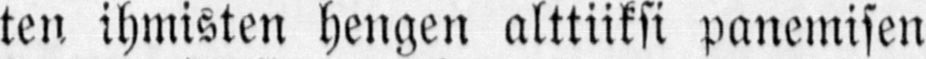ten ihmisten hengen alttiiksi panemisen
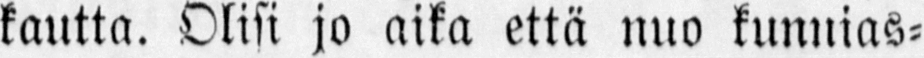kautta. Olisi jo aika että nuo kunnias-
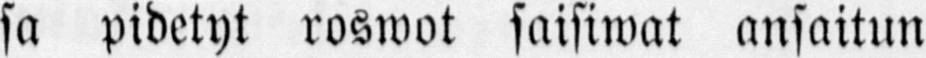sa pidetyt roswot saisiwat ansaitun
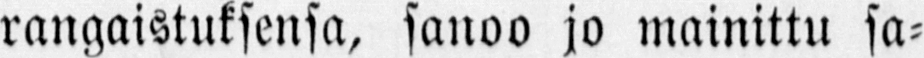rangaistuksensa, sanoo jo mainittu sa-
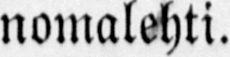nomalehti.
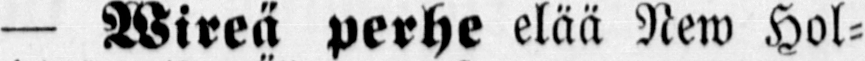— Wireä perhe elää New Hol-
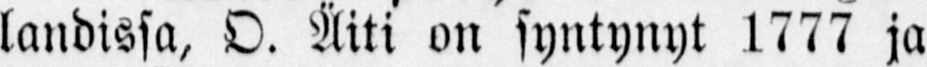landissa, O. Äiti on syntynyt 1777 ja
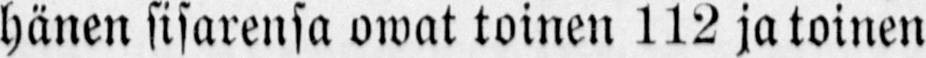hänen sisarensa owat toinen 112 ja toinen
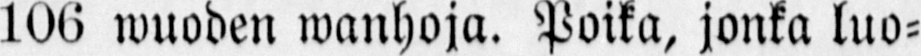106 wuoden wanhoja. Poika, jonka luo-
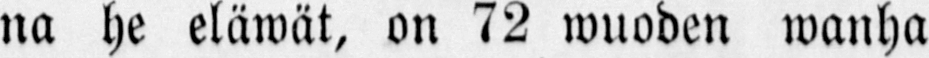na he eläwät, on 72 wuoden wanha
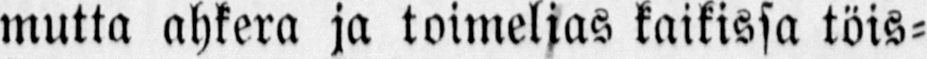mutta ahkera ja toimelias kaikissa töis-
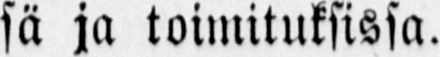sä ja toimituksissa.
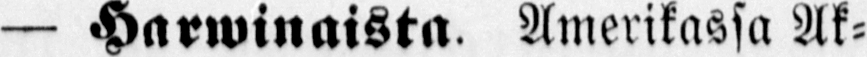— Harwinaista. Amerikassa Ak-
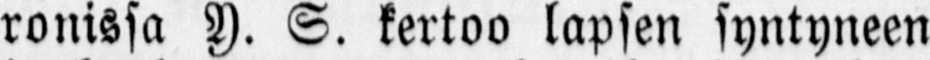ronissa Y. S. kertoo lapsen syntyneen
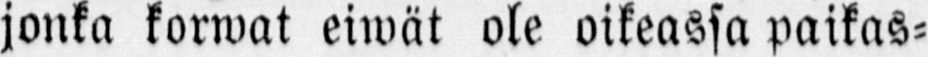jonka korwat eiwät ole oikeassa paikas-
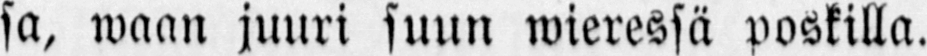sa, waan juuri suun wieressä poskilla.
